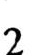2
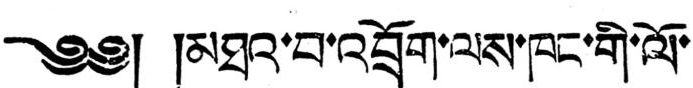༄༅། །མཐའ་བ་འབྲོག་ལས་ཁང་གི་ལོ་
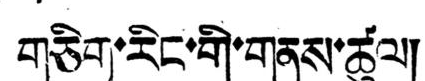གཅིག་རིང་གི་གནས་ཚུལ།
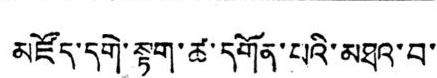མཛོད་དགེ་སྟག་ཚ་དགོན་པའི་མཐའ་བ་
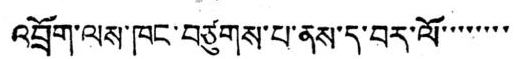འབྲོག་ལས་ཁང་བཙུགས་པ་ནས་ད་བར་ལོ་་་་་་་་
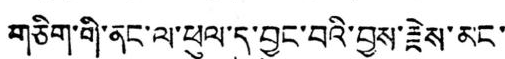གཅིག་གི་ནང་ལ་ཕུལ་དུ་བྱུང་བའི་བྱས་རྗེས་མང་
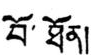བོ་ཐོན།
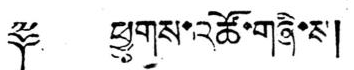༈ ཕྱུགས་འཚོ་གཞི་ས།
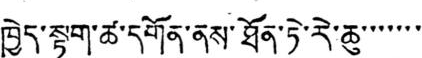ཁྱེད་སྟག་ཚ་དགོན་ནས་ཐོན་ཏེ་རེ་ཆུ་་་་་་་
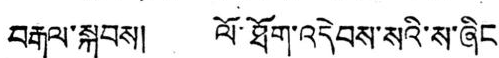བརྒལ་སྐབས། ལོ་ཐོག་འདེབས་སའི་ས་ཞིང་
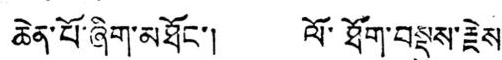ཆེན་པོ་ཞིག་མཐོང་། ལོ་ཐོག་བསྡུས་རྗེས་
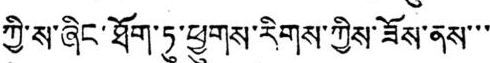ཀྱི་ས་ཞིང་ཐོག་ཏུ་ཕྱུགས་རིགས་ཀྱིས་ཟོས་ནས་་་་
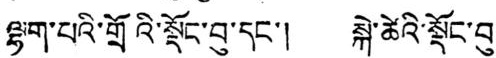ལྷག་པའི་གྲོའི་སྡོང་བུ་དང་། སྐེ་ཚེའི་སྡོང་བུ།
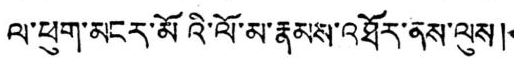ལ་ཕུག་མངར་མོའི་ལོ་མ་རྣམས་འཐོར་ནས་ལུས།
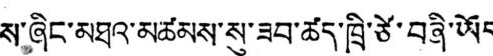ས་ཞིང་མཐའ་མཚམས་སུ་ཟབ་ཚད་ཁྲི་ཙེ་བཞི་ཡོད
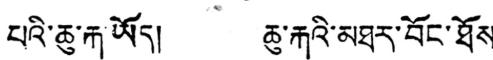པའི་ཆུ་རྐ ཡོད། ཆུ་རྐའི་མཐར་བོང་ཐོས་
